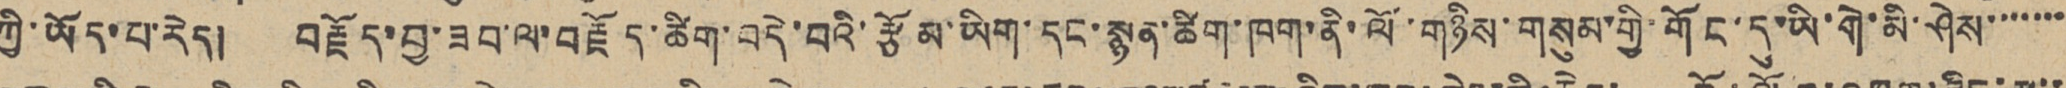ཀྱི་ཡོད་པ་རེད། བརྗོད་བྱ་ཟབ་ལ་བརྗོད་ཚིག་བདེ་བའི་རྩོམ་ཡིག་དང་སྙན་ཚིག་ཁག་ནི་ལོ་གཉིས་གསུམ་གྱི་གོང་དུ་ཡི་གེ་མི་ཤེས་་་་་་་
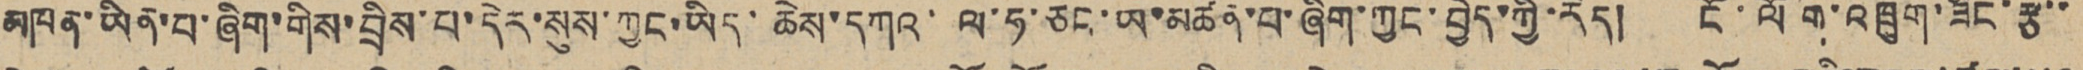མཁན་ཡིན་པ་ཞིག་གིས་བྲིས་པ་དེར་སུས་ཀྱང་ཡིད་ཆེས་དཀའ་ལ་ཧ་ཅང་ཡ་མཚན་པ་ཞིག་ཀྱང་བྱེད་ཀྱི་རེད། ངོ་ལོག་འཁྲུག་ཟིང་རྩ་་
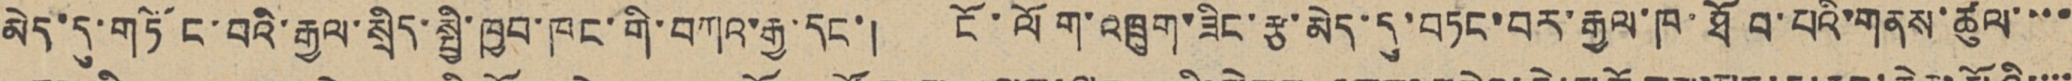མེད་དུ་གཏོང་བའི་རྒྱལ་སྲིད་སྤྱི་ཁྱབ་ཁང་གི་བཀའ་རྒྱ་དང་། ངོ་ལོག་འཁྲུག་ཟིང་རྩ་མེད་དུ་བཏང་བར་རྒྱལ་ཁ་ཐོབ་པའི་གནས་ཚུལ་་་་
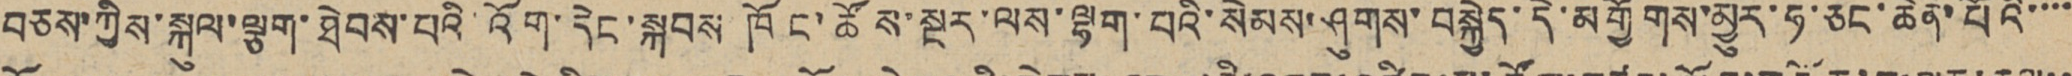བཅས་ཀྱིས་སྐུལ་ལྕག་ཐེབས་པའི་འོག་དེང་སྐབས ཁོང་ཚོས་སྔར་ལས་ལྷག་པའི་སེམས་ཤུགས་བསྐྱེད་དེ་མགྱོགས་མྱུར་ཧ་ཅང་ཆེན་པོའི་་་་
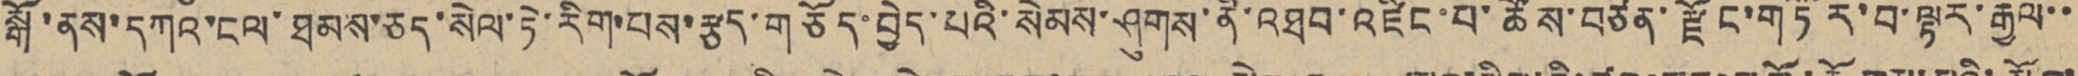སྒོ་ནས་དཀའ་ངལ་ཐམས་ཅད་སེལ་ཏེ་རིག་པས་རྩད་གཅོད་བྱེད་པའི་སེམས་ཤུགས་ནི་འཐབ་འཛིང་པ་ཚོས་བཙན་རྫོང་གཏོར་བ་ལྟར་རྒྱལ་་
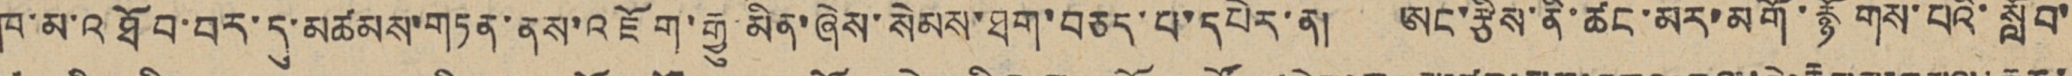ཁ་མ་འཐོབ་བར་དུ་མཚམས་གཏན་ནས་འཇོག་རྒྱུ མིན་ཞེས་སེམས་ཐག་བཅད་པ་དཔེར་ན། ཨང་རྩིས་ནི་ཚང་མར་མགོ་རྙོགས་པའི་སློབ་
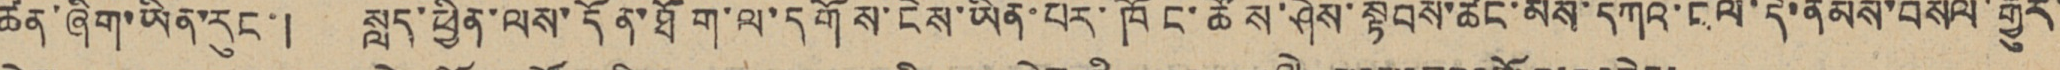ཚན་ཞིག་ཡིན་རུང་། སླད་ཕྱིན་ལས་དོན་ཐོག་ལ་དགོས་ངེས་ཡིན་པར་ཁོང་ཚོས་ཤེས་སྟབས་ཚང་མས་དཀའ་ངལ་དེ་རྣམས་བསལ་རྒྱུར་
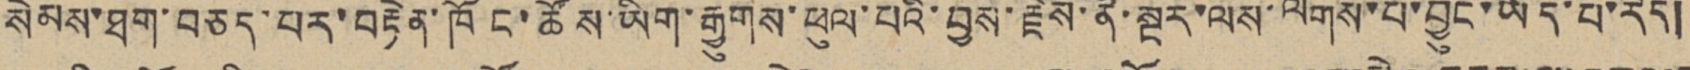སེམས་ཐག་བཅད་པར་བརྟེན་ཁོང་ཚོས་ཡིག་རྒྱུགས་ཕུལ་པའི་བྱས་རྗེས་ནི་སྔར་ལས་ལེགས་པ་བྱུང་ཡོད་པ་རེད།
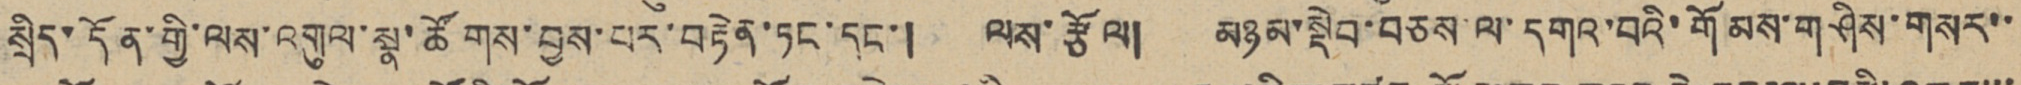སྲིད་དོན་གྱི་ལས་འགུལ་སྣ་ཚོགས་བྱས་པར་བརྟེན་ཏང་དང་། ལས་རྩོལ། མཉམ་སྡེབ་བཅས་ལ་དགའ་བའི་གོམས་གཤིས་གསར་་
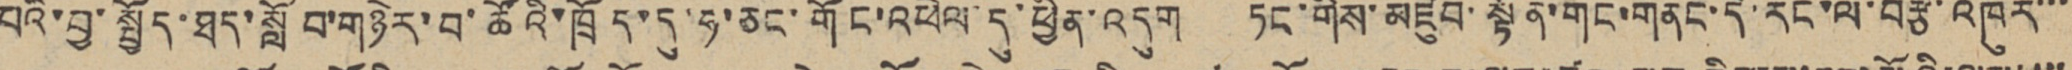པའི་བྱ་སྤྱོད་ཐད་སློབ་གཉེར་བ་ཚོའི་ཁྲོད་དུ་ཧ་ཅང་གོང་འཕེལ་དུ་ཕྱིན་འདུག ཏང་གིས་མཛུབ་སྟོན་གང་གནང་དེ་རང་ལ་བརྩི་འཁུར་་་
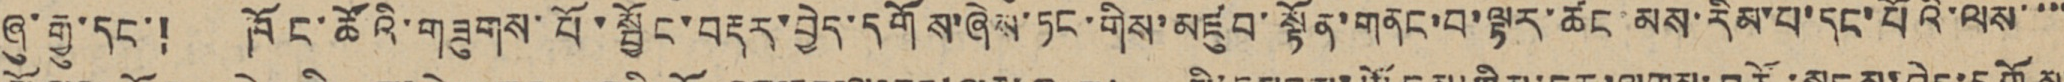ཞུ་རྒྱུ་དང་། ཁོང་ཚོའི་གཟུགས་པོ་སྦྱོང་བརྡར་བྱེད་དགོས་ཞེས་ཏང་གིས་མཛུབ་སྟོན་གནང་བ་ལྟར་ཚང་མས་རིམ་པ་དང་པོའི་ལས་་་་
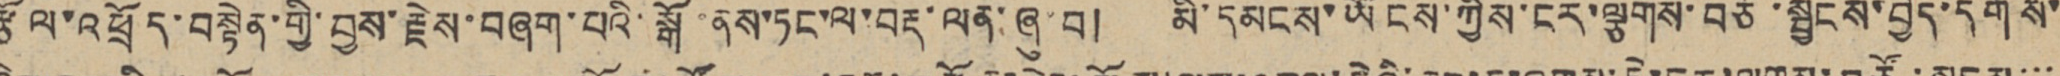རྩོལ་འཕྲོད་བསྟེན་གྱི་བྱས་རྗེས་བཞག་པའི་སྒོ་ནས་ཏང་ལ་བརྡ་ལན་ཞུ་བ། མི་དམངས་ཡོངས་ཀྱིས་ངར་ལྕགས་བཙོ་སྦྱངས་བྱེད་དགོས་
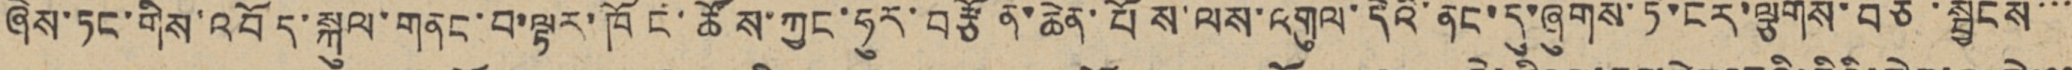ཞེས་ཏང་གིས་འབོད་སྐུལ་གནང་བ་ལྟར་ཁོང་ཚོས་ཀྱང་ཧུར་བརྩོན་ཆེན་པོས་ལས་འགུལ་དེའི་ནང་དུ་ཞུགས་ཏེ་ངར་ལྕགས་བཙོ་སྦྱངས་་་
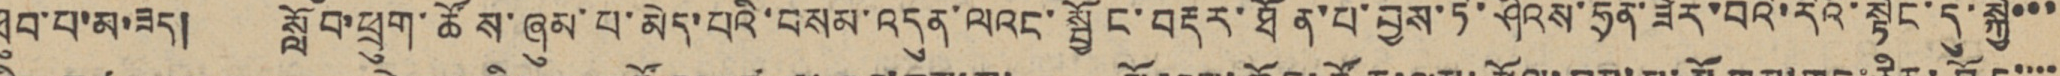ཐུབ་པ་མ་ཟད། སློབ་ཕྲུག་ཚོས་ཞུམ་པ་མེད་པའི་བསམ་འདུན་ལའང་སྦྱོང་བརྡར་ཐོན་པ་བྱས་ཏེ་ཤིའས་ཧྲན་ཟེར་བའི་རིའི་སྟེང་དུ་སྐྱེ་་་
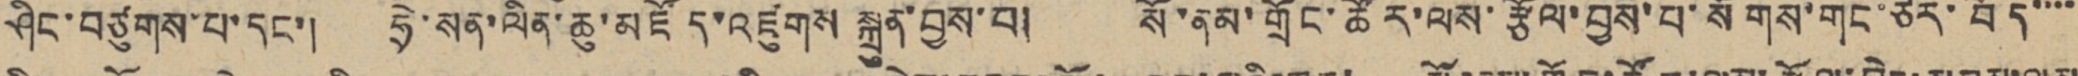ཤིང་བཙུགས་པ་དང་། ཧྲེ་སན་ལིན་ཆུ་མཛོད་འཛུགས སྐྲུན་བྱས་པ། སོ་ནམ་གྲོང་ཚོར་ལས་རྩོལ་བྱས་པ་སོགས་གང་ཅིར་བོད་་་་
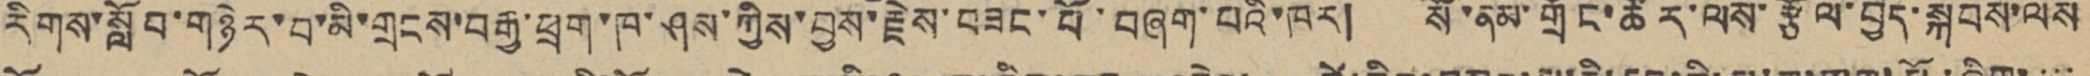རིགས་སློབ་གཉེར་བ་མི་གྲངས་བརྒྱ་ཕྲག་ཁ་ཤས་ཀྱིས་བྱས་རྗེས་བཟང་པོ་བཞག་པའི་ཁར། སོ་ནམ་གྲོང་ཚོར་ལས་རྩོལ་བྱེད་སྐབས་ལས
